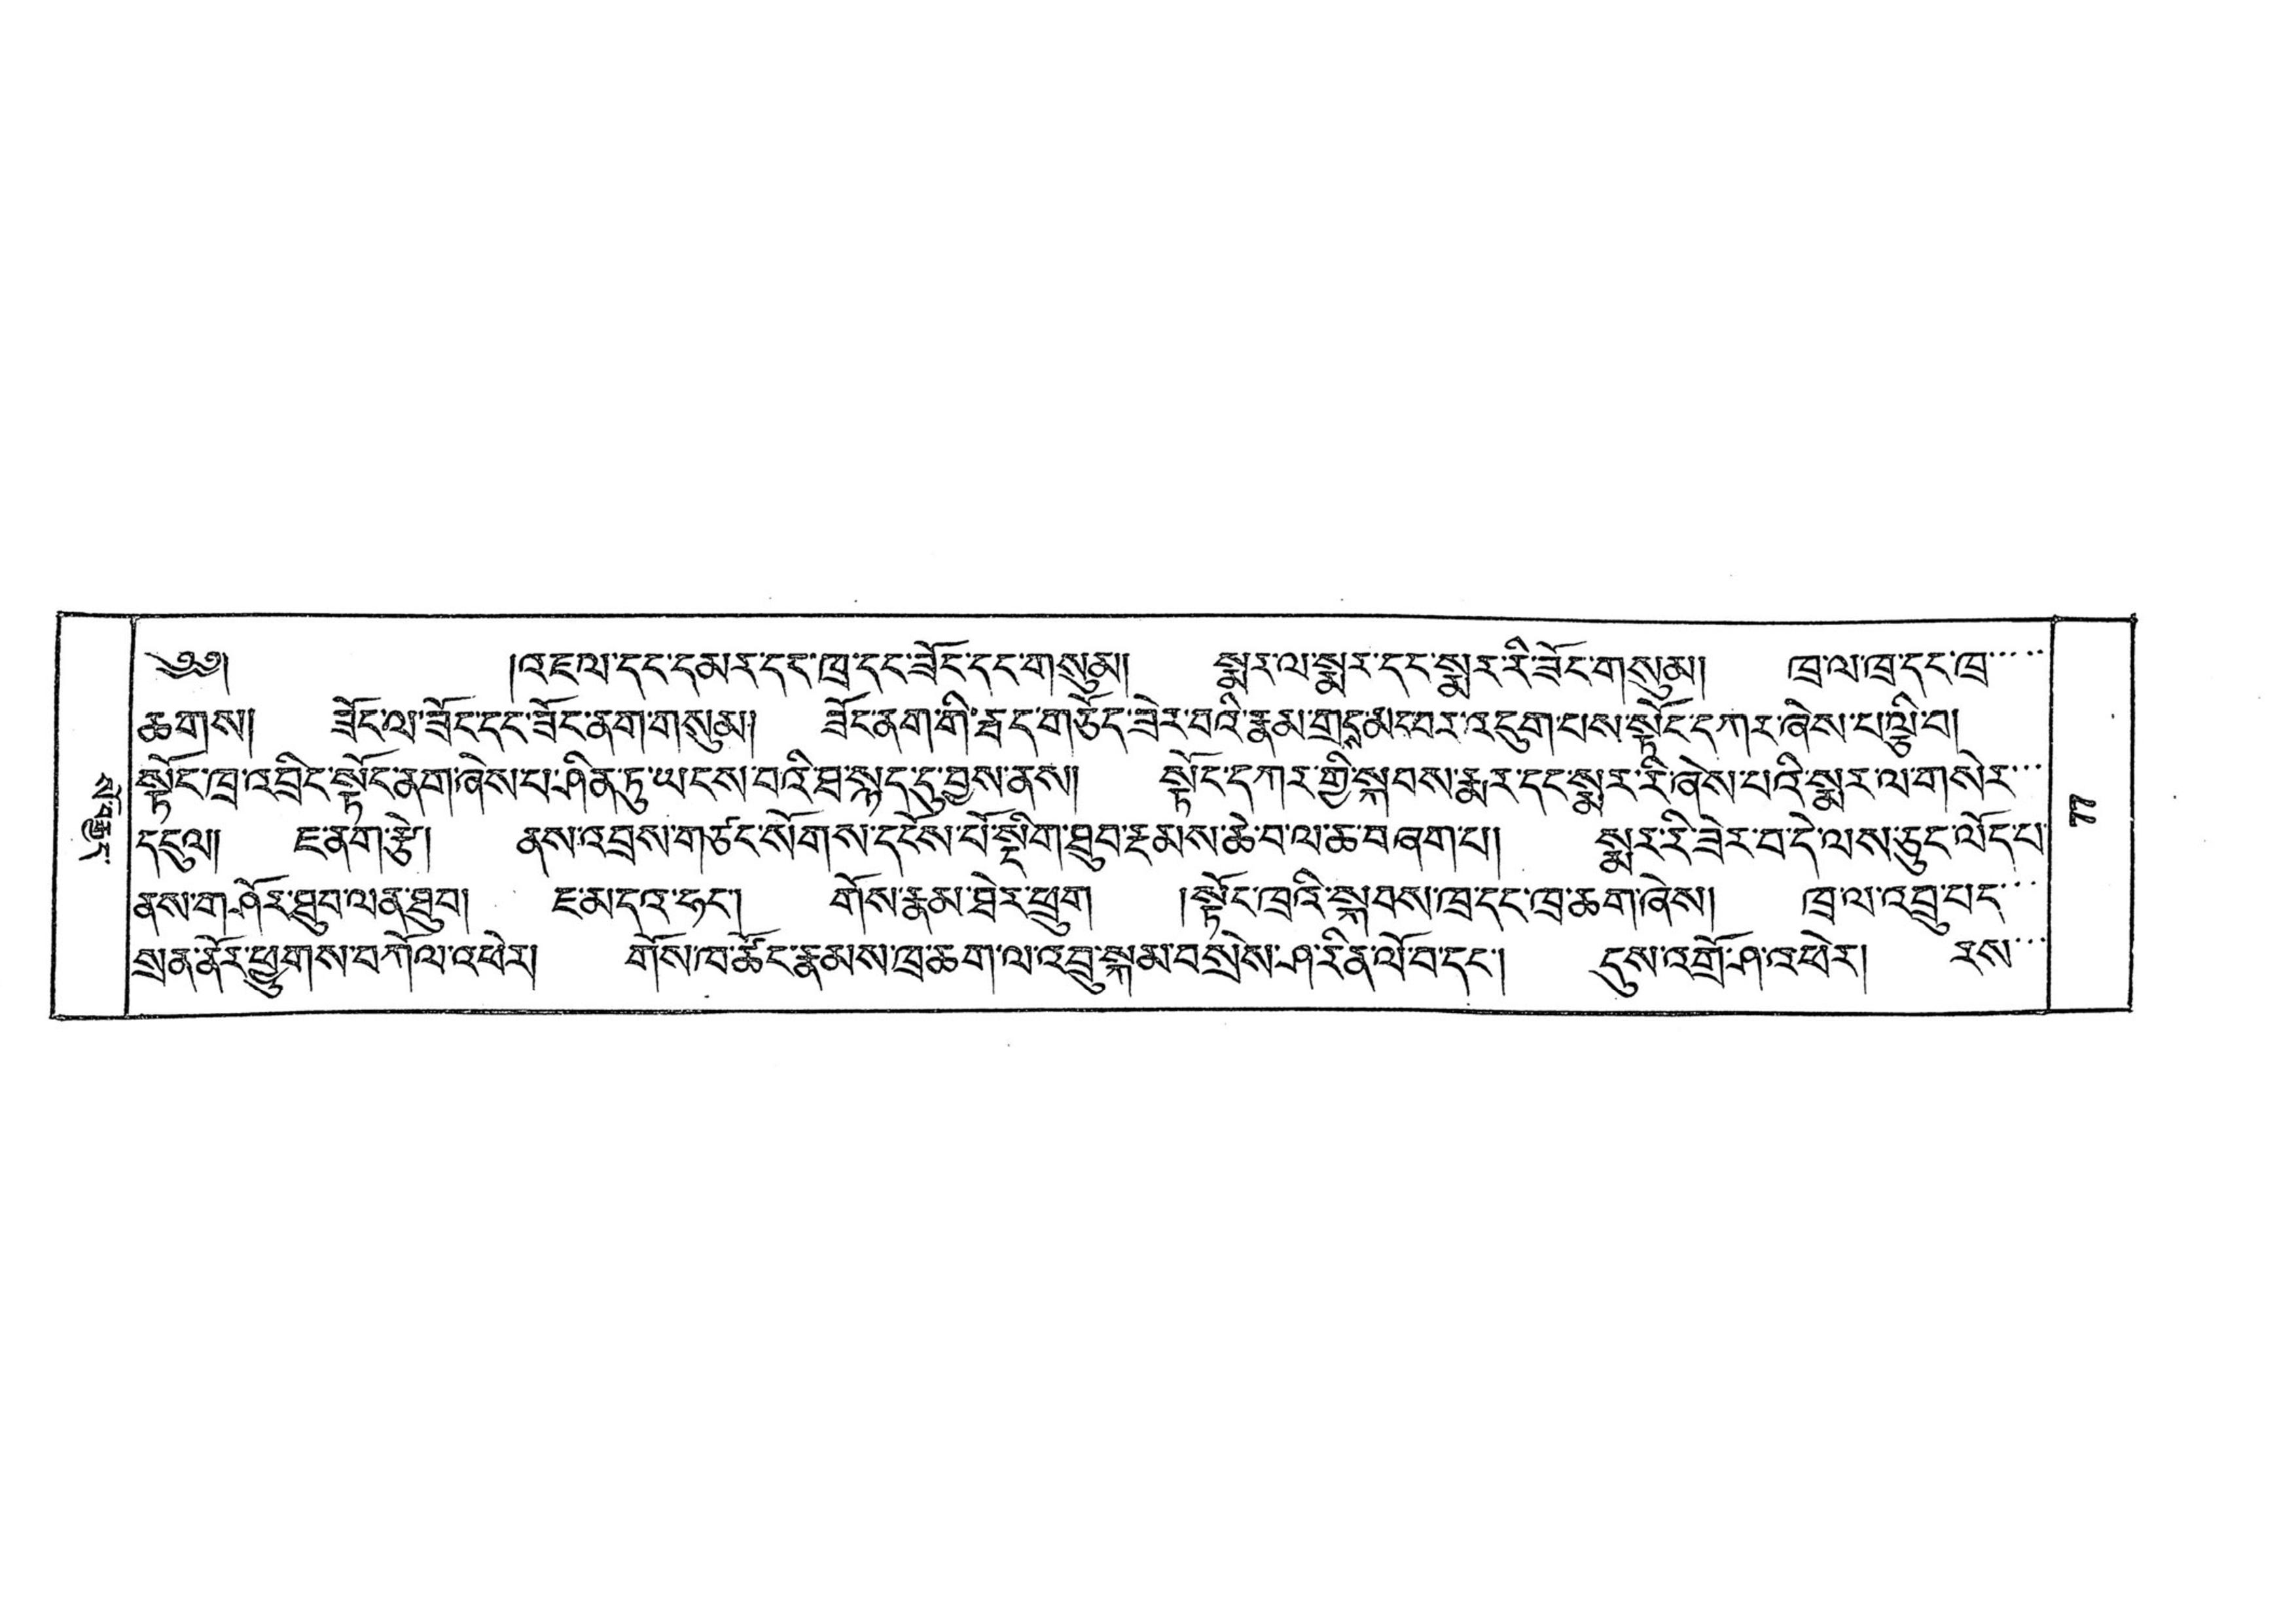སོ་བརྒྱད་
༄༅།  །འཇལ་དང་དམར་དང་ཁྲ་དང་ཟོང་དང་གསུམ། སྨར་ལ་སྨར་དང་སྨར་རི་ཟོང་གསུམ། ཁྲ་ལ་ཁྲི་དང་ཁྲ་་་་་
ཆགས། ཟོང་ལ་ཟོང་དང་ཟོང་ནག་གསུམ། ཟོང་ནག་གི་རྦད་གཅོད་ཟེར་བའི་རྣམ་གྲངས་མང་བར་འདུག་པས་སྟོང་དཀར་ཞེས་པ་ལྕི་བ།
སྟོང་ཁྲ་འབྲིང་སྟོང་ནག་ཞེས་པ་ཤིན་ཏུ་ཡོངས་བའི་ཐ་སྙད་དུ་བྱས་ནས། སྟོང་དཀར་གྱི་སྐབས་རྨར་དང་སྨར་རི་ཞེས་པའི་སྨར་ལ་གསེར་་་
དངུལ། ཇ་ནག་རྩེ། ནས་འབྲས་གཙང་སོགས་དངོས་པོ་སྡིག་ཐུབ་རྔམས་ཆེ་བ་ལ་ཆ་བཞག་པ། སྨར་རི་ཟེར་བ་དེ་ལས་ཅུང་ལོད་པ་
ནས་གཤོར་ཐུབ་ལན་ཐུབ། ཇ་མདའ་ཧང་། གོས་རྣམ་ཐེར་ཕྲུག །སྟོང་ཁྲའི་སྐབས་ཁྲ་དང་ཁྲ་ཆག་ཞེས། ཁྲ་ལ་འབྲུ་པད་་་
སྲན་ནོར་ཕྱུགས་བཀོལ་འཕེར། གོས་ཁ་ཚོང་རྣམས་ཁྲ་ཆག་ལ་འབྲུ་སྐམ་བསྲེས་ཤ་རིན་ལོ་བ་དང་། དུས་འགྲོ་ཤ་འཕེར། རས་་་
